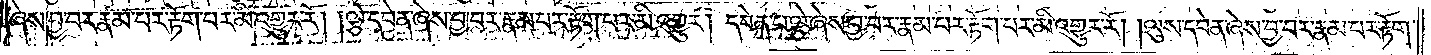ཞེས་བྱ་བར་རྣམ་པར་རྟོག་པར་མི་འགྱུར་རོ། །ལྕེ་དབེན་ཞེས་བྱ་བར་རྣམ་པར་རྟོག་པར་མི་འགྱུར། དབེན་པ་ལྕེ་ཞེས་བྱ་བར་རྣམ་པར་རྟོག་པར་མི་འགྱུར་རོ། །ལུས་དབེན་ཞེས་བྱ་བར་རྣམ་པར་རྟོག་
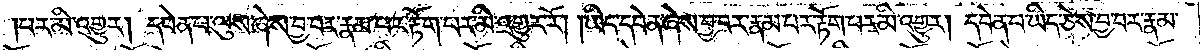པར་མི་འགྱུར། དབེན་པ་ལུས་ཞེས་བྱ་བར་རྣམ་པར་རྟོག་པར་མི་འགྱུར་རོ། །ཡིད་དབེན་ཞེས་བྱ་བར་རྣམ་པར་རྟོག་པར་མི་འགྱུར། དབེན་པ་ཡིད་ཅེས་བྱ་བར་རྣམ་
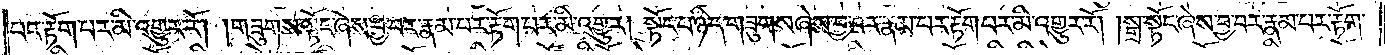པར་རྟོག་པར་མི་འགྱུར་རོ། །གཟུགས་སྟོང་ཞེས་བྱ་བར་རྣམ་པར་རྟོག་པར་མི་འགྱུར། སྟོང་པ་ཉིད་གཟུགས་ཞེས་བྱ་བར་རྣམ་པར་རྟོག་པར་མི་འགྱུར་རོ། །སྒྲ་སྟོང་ཞེས་བྱ་བར་རྣམ་པར་རྟོག་
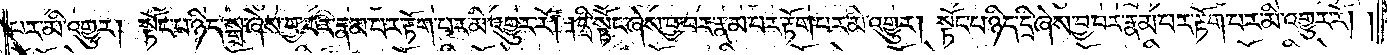པར་མི་འགྱུར། སྟོང་པ་ཉིད་སྒྲ་ཞེས་བྱ་བར་རྣམ་པར་རྟོག་པར་མི་འགྱུར་རོ། །དྲི་སྟོང་ཞེས་བྱ་བར་རྣམ་པར་རྟོག་པར་མི་འགྱུར། སྟོང་པ་ཉིད་དྲི་ཞེས་བྱ་བར་རྣམ་པར་རྟོག་པར་མི་འགྱུར་རོ། །
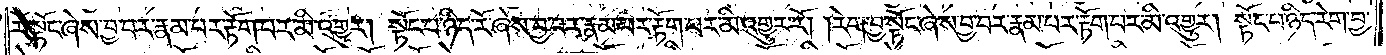རོ་སྟོང་ཞེས་བྱ་བར་རྣམ་པར་རྟོག་པར་མི་འགྱུར། སྟོང་པ་ཉིད་རོ་ཞེས་བྱ་བར་རྣམ་པར་རྟོག་པར་མི་འགྱུར་རོ། །རེག་བྱ་སྟོང་ཞེས་བྱ་བར་རྣམ་པར་རྟོག་པར་མི་འགྱུར། སྟོང་པ་ཉིད་རེག་བྱ་
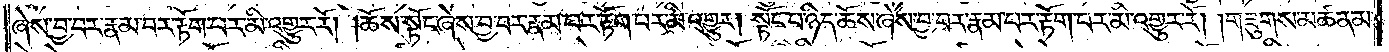ཞེས་བྱ་བར་རྣམ་པར་རྟོག་པར་མི་འགྱུར་རོ། །ཆོས་སྟོང་ཞེས་བྱ་བར་རྣམ་པར་རྟོག་པར་མི་འགྱུར། སྟོང་པ་ཉིད་ཆོས་ཞེས་བྱ་བར་རྣམ་པར་རྟོག་པར་མི་འགྱུར་རོ། །གཟུགས་མཚན་མ་
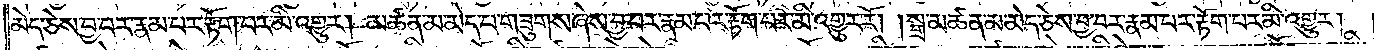མེད་ཅེས་བྱ་བར་རྣམ་པར་རྟོག་པར་མི་འགྱུར། །མཚན་མ་མེད་པ་གཟུགས་ཞེས་བྱ་བར་རྣམ་པར་རྟོག་པར་མི་འགྱུར་རོ། སྒྲ་མཚན་མ་མེད་ཅེས་བྱ་བར་རྣམ་པར་རྟོག་པར་མི་འགྱུར།
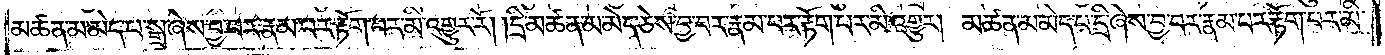མཚན་མ་མེད་པ་སྒྲ་ཞེས་བྱ་བར་རྣམ་པར་རྟོག་པར་མི་འགྱུར་རོ། །དྲི་མཚན་མ་མེད་ཅེས་བྱ་བར་རྣམ་པར་རྟོག་པར་མི་འགྱུར། མཚན་མ་མེད་པ་དྲི་ཞེས་བྱ་བར་རྣམ་པར་རྟོག་པར་མི་
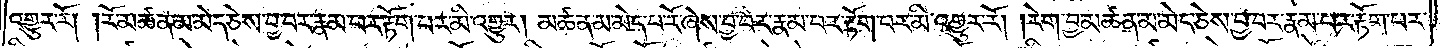འགྱུར་རོ། །རོ་མཚན་མ་མེད་ཅེས་བྱ་བར་རྣམ་པར་རྟོག་པར་མི་འགྱུར། །མཚན་མ་མེད་པ་རོ་ཞེས་བྱ་བར་རྣམ་པར་རྟོག་པར་མི་འགྱུར་རོ། །རེག་བྱ་མཚན་མ་མེད་ཅེས་བྱ་བར་རྣམ་པར་རྟོག་པར་
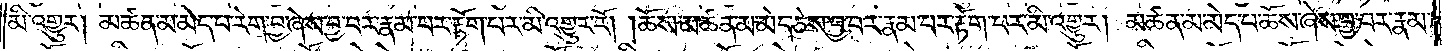མི་འགྱུར། མཚན་མ་མེད་པ་རེག་བྱ་ཞེས་བྱ་བར་རྣམ་པར་རྟོག་པར་མི་འགྱུར་རོ། །ཆོས་མཚན་མ་མེད་ཅེས་བྱ་བར་རྣམ་པར་རྟོག་པར་མི་འགྱུར། མཚན་མ་མེད་པ་ཆོས་ཞེས་བྱ་བར་རྣམ་
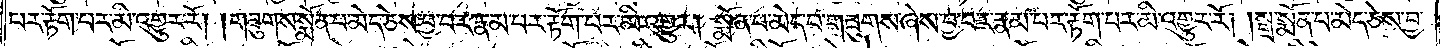པར་རྟོག་པར་མི་འགྱུར་རོ། །གཟུགས་སྨོན་པ་མེད་ཅེས་བྱ་བར་རྣམ་པར་རྟོག་པར་མི་འགྱུར། སྨོན་པ་མེད་པ་གཟུགས་ཞེས་བྱ་བར་རྣམ་པར་རྟོག་པར་མི་འགྱུར་རོ། །སྒྲ་སྨོན་པ་མེད་ཅེས་བྱ་
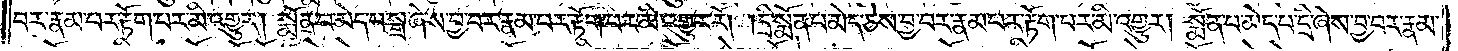བར་རྣམ་པར་རྟོག་པར་མི་འགྱུར། སྨོན་པ་མེད་པ་སྒྲ་ཞེས་བྱ་བར་རྣམ་པར་རྟོག་པར་མི་འགྱུར་རོ། །དྲི་སྨོན་པ་མེད་ཅེས་བྱ་བར་རྣམ་པར་རྟོག་པར་མི་འགྱུར། སྨོན་པ་མེད་པ་དྲི་ཞེས་བྱ་བར་རྣམ་
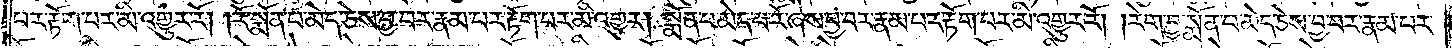པར་རྟོག་པར་མི་འགྱུར་རོ། །རོ་སྨོན་པ་མེད་ཅེས་བྱ་བར་རྣམ་པར་རྟོག་པར་མི་འགྱུར། སྨོན་པ་མེད་པ་རོ་ཞེས་བྱ་བར་རྣམ་པར་རྟོག་པར་མི་འགྱུར་རོ། །རེག་བྱ་སྨོན་པ་མེད་ཅེས་བྱ་བར་རྣམ་པར་
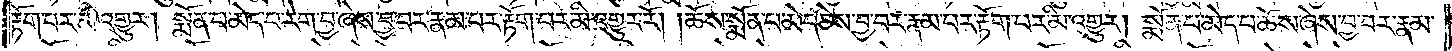རྟོག་པར་མི་འགྱུར། སྨོན་པ་མེད་པ་རེག་བྱ་ཞེས་བྱ་བར་རྣམ་པར་རྟོག་པར་མི་འགྱུར་རོ། །ཆོས་སྨོན་པ་མེད་ཅེས་བྱ་བར་རྣམ་པར་རྟོག་པར་མི་འགྱུར། སྨོན་པ་མེད་པ་ཆོས་ཞེས་བྱ་བར་རྣམ་
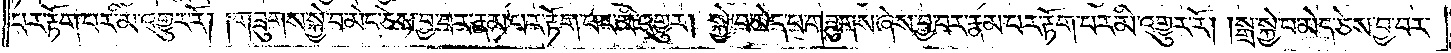པར་རྟོག་པར་མི་འགྱུར་རོ། །གཟུགས་སྐྱེ་བ་མེད་ཅེས་བྱ་བར་རྣམ་པར་རྟོག་པར་མི་འགྱུར། སྐྱེ་བ་མེད་པ་གཟུགས་ཞེས་བྱ་བར་རྣམ་པར་རྟོག་པར་མི་འགྱུར་རོ། །སྒྲ་སྐྱེ་བ་མེད་ཅེས་བྱ་བར་
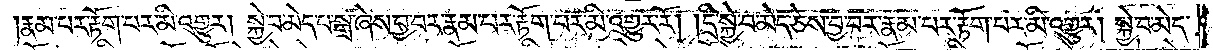རྣམ་པར་རྟོག་པར་མི་འགྱུར། སྐྱེ་བ་མེད་པ་སྒྲ་ཞེས་བྱ་བར་རྣམ་པར་རྟོག་པར་མི་འགྱུར་རོ། །དྲི་སྐྱེ་བ་མེད་ཅེས་བྱ་བར་རྣམ་པར་རྟོག་པར་མི་འགྱུར། སྐྱེ་བ་མེད་
